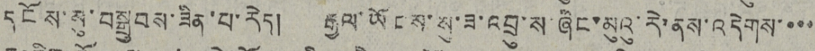དངོས་སུ་བསྒྲུབས་ཟིན་པ་རེད། རྒྱལ་ཡོངས་སུ་ཟ་འབྲུ་ས་ཞིང་མུའུ་རེ་ནས་འདེགས་་་་
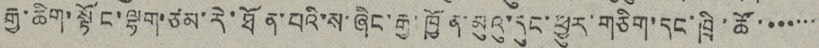རྒྱ་ཆིག་སྟོང་ལྷག་ཙམ་རེ་ཐོན་པའི་ས་ཞིང་རྒྱ་ཁྱོན་མུའུ་དུང་ཕྱུར་གཅིག་དང་ཁྲི་ཚོ་་་་་་་
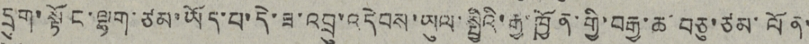དྲུག་སྟོང་ལྷག་ཙམ་ཡོད་པ་དེ་ཟ་འབྲུ་འདེབས་ཡུལ་སྤྱིའི་རྒྱ་ཁྱོན་གྱི་བརྒྱ་ཆ་བཅུ་ཙམ་ལོན་
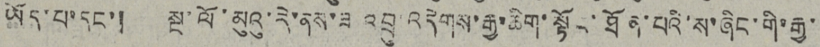ཡོད་པ་དང་། སྔ་ལོ་མུའུ་རེ་ནས་ཟ འབྲུ་འདེགས་རྒྱ་ཆིག་སྟོང་ཐོན་པའི་ས་ཞིང་གི་རྒྱ་
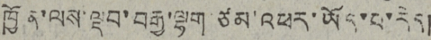ཁྱོན་ལས་ལྡབ་བརྒྱ་ལྷག ཙམ་འཕར་ཡོད་པ་རེད།
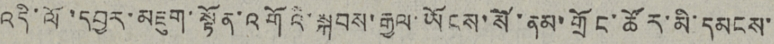འདི་ལོ་དབྱར་མཇུག་སྟོན་འགོའི་སྐབས་རྒྱལ་ཡོངས་སོ་ནམ་གྲོང་ཚོར་མི་དམངས་
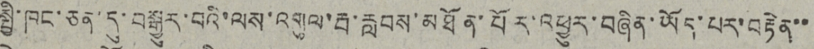སྤྱི་ཁང་ཅན་དུ་བསྒྱུར་བའི་ལས་འགུལ་རྦ་རླབས་མཐོན་པོར་འཕྱུར་བཞིན་ཡོད་པར་བརྟེན་་
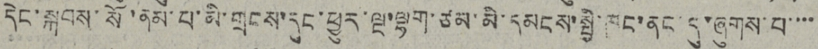དེང་སྐབས་སོ་ནམ་པ་མི་གྲངས་དུང་ཕྱུར་ལྔ་ལྷག་ཙམ་མི་དམངས་སྤྱི་ཁང་ནང་དུ་ཞུགས་པ་་་་
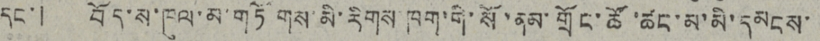དང་། བོད་ས་ཁུལ་མ་གཏོགས་མི་རིགས་ཁག་གི་སོ་ནམ་གྲོང་ཚོ་ཚང་མ་མི་དམངས་
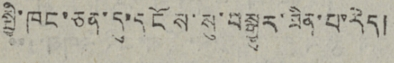སྤྱི་ཁང་ཅན་དུ་དངོས་སུ་བསྒྱུར་ཟིན་པ་རེད།
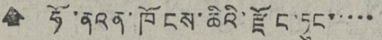🠹 ཧོ་ནའན་ཁོངས་ཆིའི་རྫོང་ཏང་་་་་
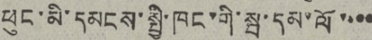ཕུང་མི་དམངས་སྤྱི་ཁང་གི་སྦ་དམ་ལོ་་་་
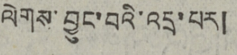ལེགས་བྱུང་བའི་འདྲ་པར།
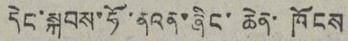དེང་སྐབས་ཧོ་ནའན་ཞིང་ཆེན་ཁོངས
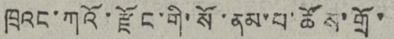ཁྲའང་ཀའོ་རྫོང་གི་སོ་ནམ་པ་ཚོས་གྲོ་
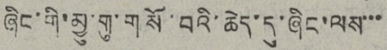ཞིང་གི་མྱུ་གུ་གསོ་བའི་ཆེད་དུ་ཞིང་ལས་་་
